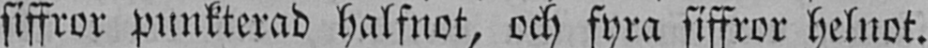siffror punkterad halfnot, och fyra siffror helnot.
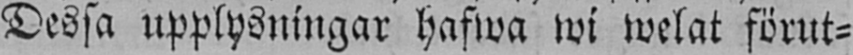Dessa upplysningar hafwa wi welat förut-
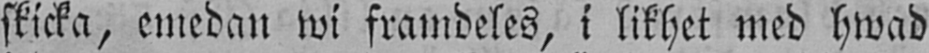skicka, emedan wi framdeles, i likhet med hwad
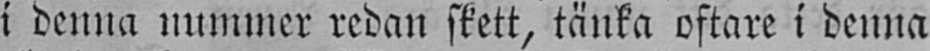i denna nummer redan skett, tänka oftare i denna
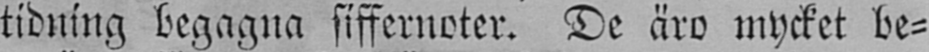tidning begagna siffernoter. De äro mycket be-
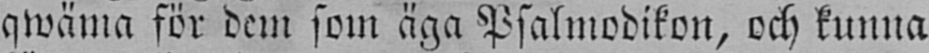qwäma för dem som äga Psalmodikon, och kunna
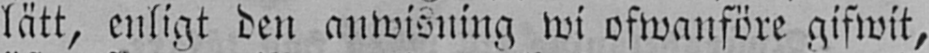lätt, enligt den anwisning wi ofwanföre gifwit,
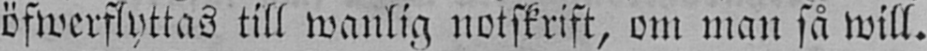öfwerflyttas till wanlig notskrift, om man så will.
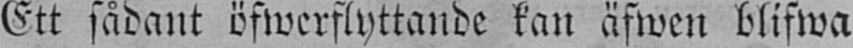Ett sådant öfwerflyttande kan äfwen blifwa
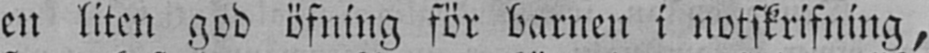en liten god öfning för barnen i notskrifning,
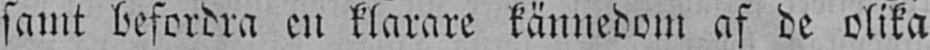samt befordra en klarare kännedom af de olika
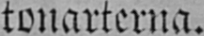tonarterna.
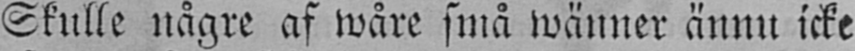Skulle någre af wåre små wänner ännu icke
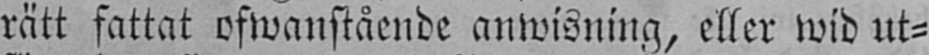rätt fattat ofwanstående anwisning, eller wid ut-
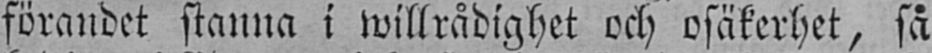förandet stanna i willrådighet och osäkerhet, så
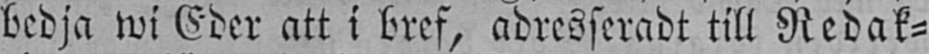bedja wi Eder att i bref, adresseradt till Redak-
